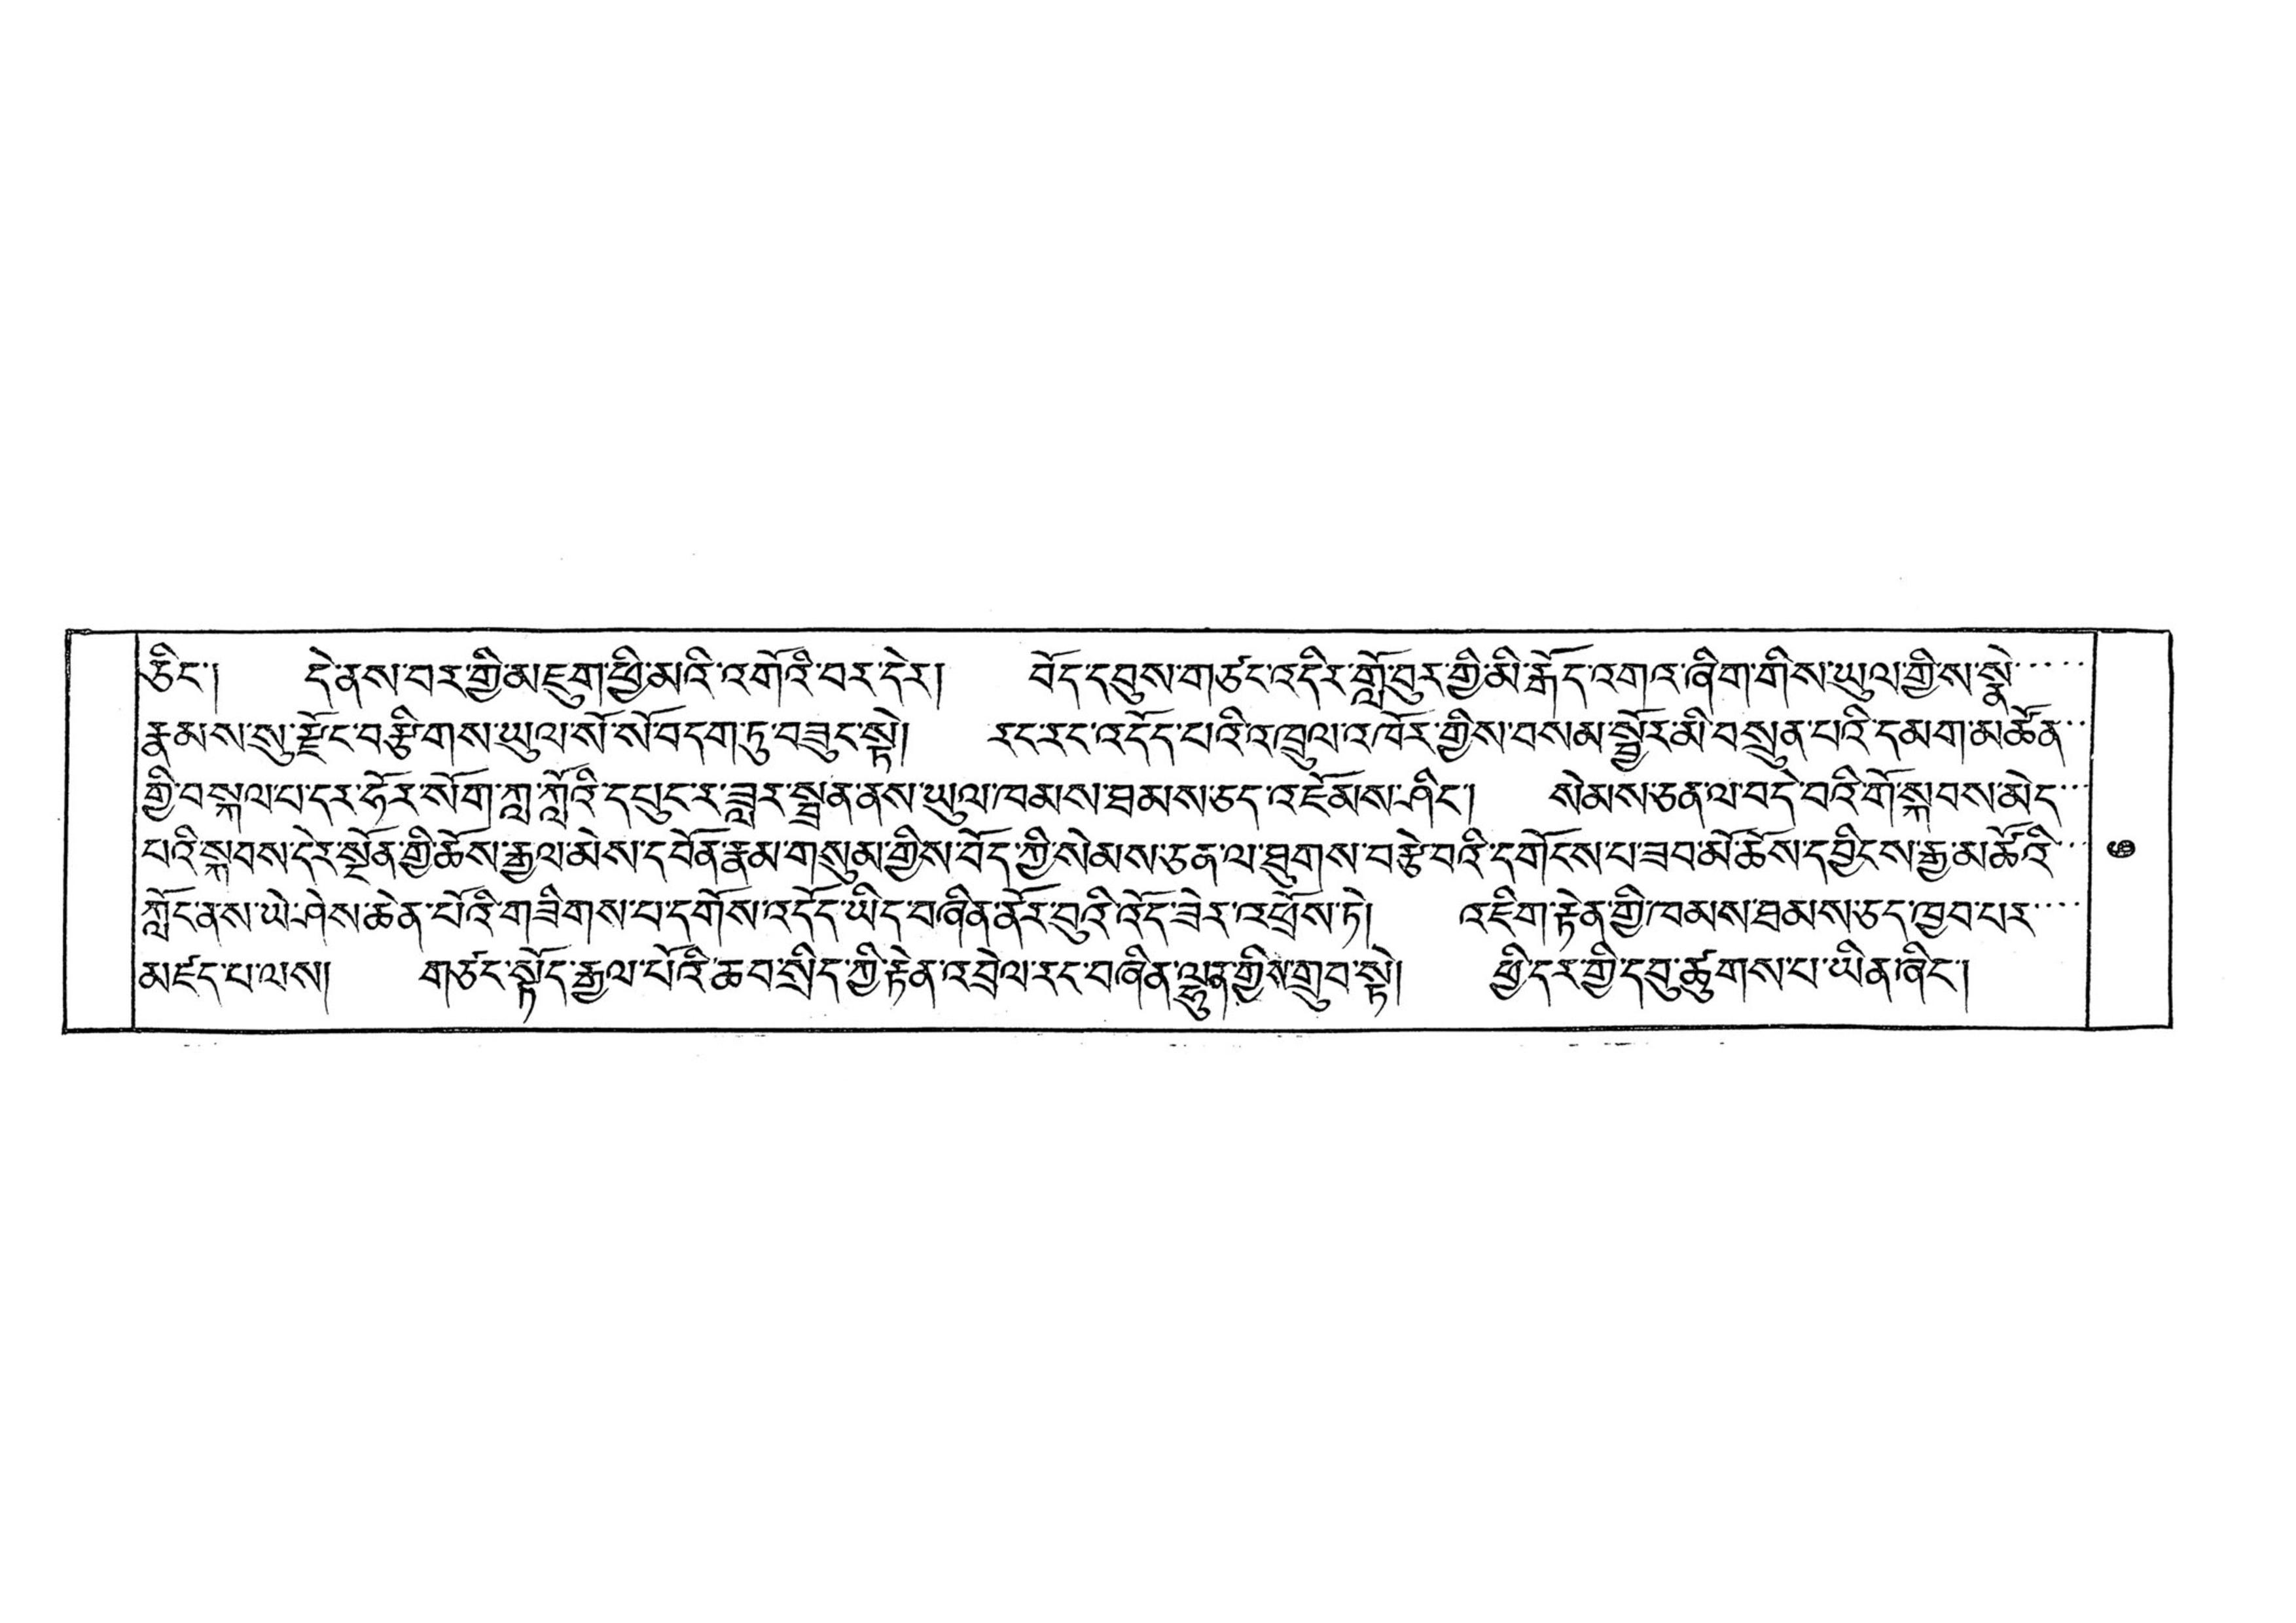ཅིང་། དེ་ནས་བར་གྱི་མཇུག་ཕྱི་མའི་འགོའི་བར་དེར། བོད་དབུས་གཙང་འདིར་གློ་བུར་གྱི་མི་རྒོད་འགའ་ཞིག་གིས་ཡུལ་གྱི་ས་སྣེ་་་་
རྣམས་སུ་རྫོང་བརྩིགས་ཡུལ་སོ་སོ་བདག་ཏུ་བཟུང་སྟེ། རང་རང་འདོད་པའི་འཁྲུལ་འཁོར་གྱིས་བསམ་སྦྱོར་མི་བསྲུན་པའི་དམག་མཚོན་་་
གྱི་བསྐལ་པ་དར་ཧོར་སོག་ཀླ་ཀློའི་དཔུང་ར་ཟླར་སྦྲན་ནས་ཡུལ་ཁམས་ཐམས་ཅད་འཇོམས་ཤིང་། སེམས་ཅན་ལ་བདེ་བའི་གོ་སྐབས་མེད་་་
པའི་སྐབས་དེར་སྔོན་གྱི་ཆོས་རྒྱལ་མེས་དབོན་རྣམ་གསུམ་གྱིས་བོད་ཀྱི་སེམས་ཅན་ལ་ཐུགས་བརྩེ་བའི་དགོངས་པ་ཟབ་མི་ཆོས་དབྱིངས་རྒྱ་མཚོའི་་་
ཀློང་ནས་ཡེ་ཤེས་ཆེན་པོའི་གཟིགས་པ་དགོས་འདོད་ཡིད་བཞིན་ནོར་བུའི་འོད་ཟེར་འཕྲོས་ཏེ། འཇིག་རྟེན་གྱི་ཁམས་ཐམས་ཅད་ཁྱབ་པར་་་་
མཛད་པ་ལས། གཙང་སྟོད་རྒྱལ་པོའི་ཆབ་སྲིད་ཀྱི་རྟེན་འབྲེལ་རང་བཞིན་ལྷུན་གྱིས་གྲུབ་སྟེ། ཕྱི་དར་གྱི་དབུ་ཚུགས་པ་ཡིན་ཞིང་།
